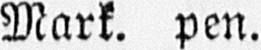Mark. pen.
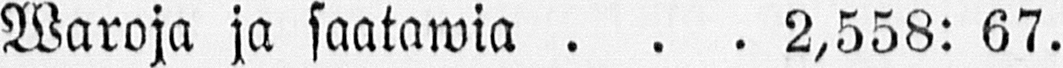Waroja ja saatawia 2,558: 67.
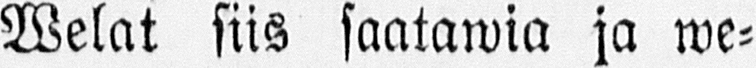Welat siis saatawia ja we-
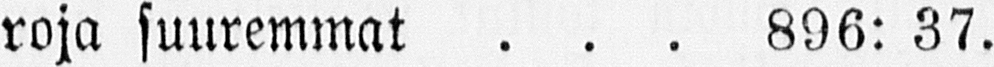roja suuremmat 896: 37.
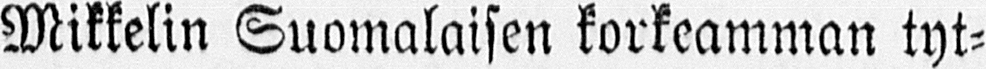Mikkelin Suomalaisen korkeamman tyt-
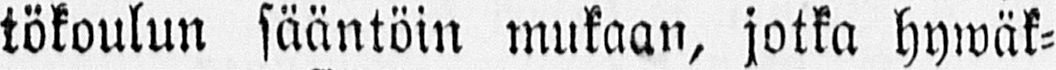tökoulun sääntöin mukaan, jotka hywäk-
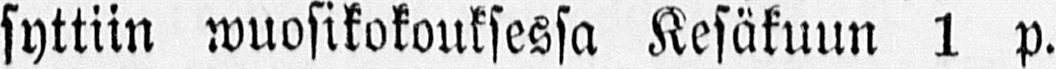syttiin wuosikokouksessa Kesäkuun 1 p.
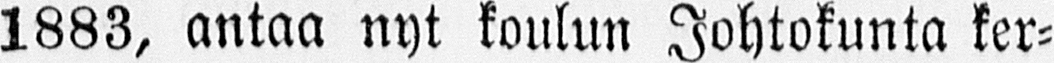1883, antaa nyt koulun Johtokunta ker-
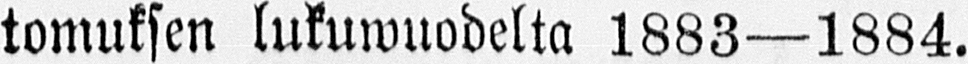tomuksen lukuwuodelta 1883—1884.
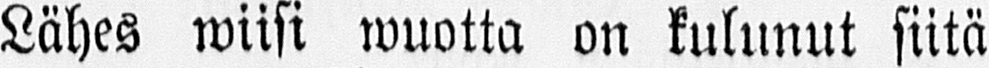Lähes wiisi wuotta on kulunut siitä
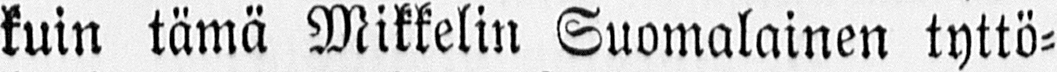kuin tämä Mikkelin Suomalainen tyttö-
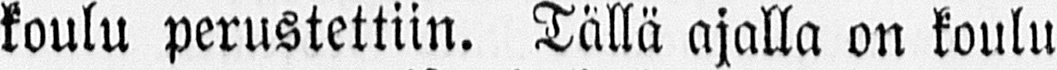koulu perustettiin. Tällä ajalla on koulu
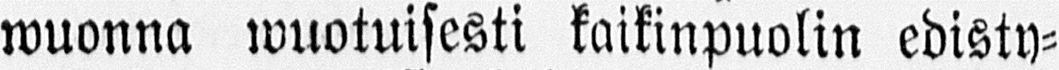wuonna wuotuisesti kaikinpuolin edisty-
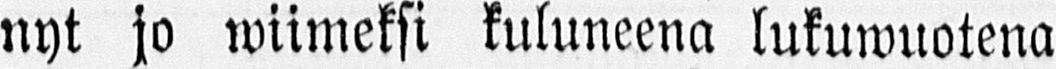nyt jo wiimeksi kuluneena lukuwuotena
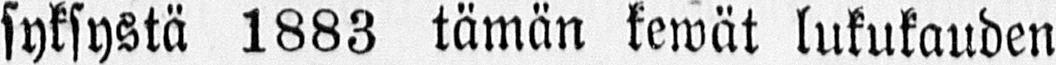syksystä 1883 tämän kewät lukukauden
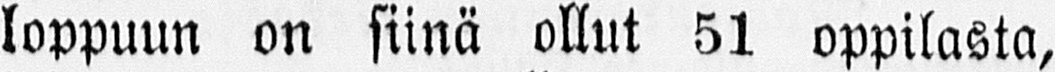loppuun on siinä ollut 51 oppilasta,
